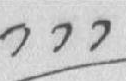༡༡༡
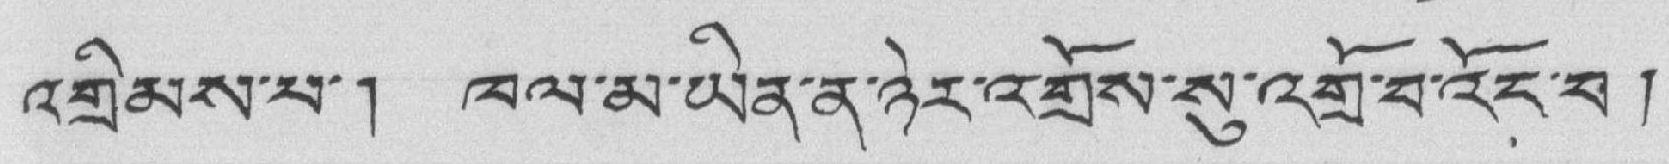འགྲིམས་པ་། ཁལ་མ་ཡིན་ན་ཉེར་འགྲོས་སུ་འགྲོ་བ་འོར་བ །
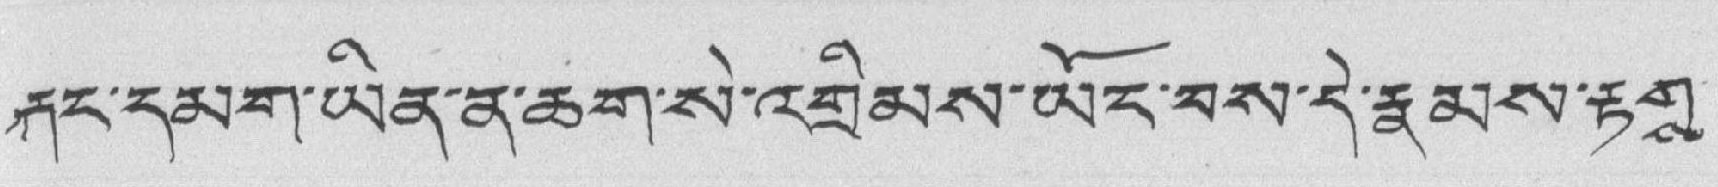རྐང་དམག་ཡིན་ན་ཆག་སེ་འགྲིམས་ཡོང་བས་དེ་རྣམས་རྟགས་
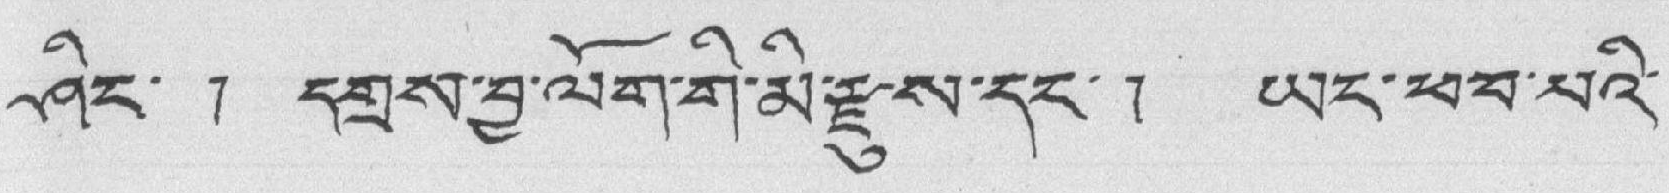ཤིང་ ། དགྲས་བྱ་ལོག་གི་མི་རྫུས་དང་། ཡང་ཕབ་པའི་
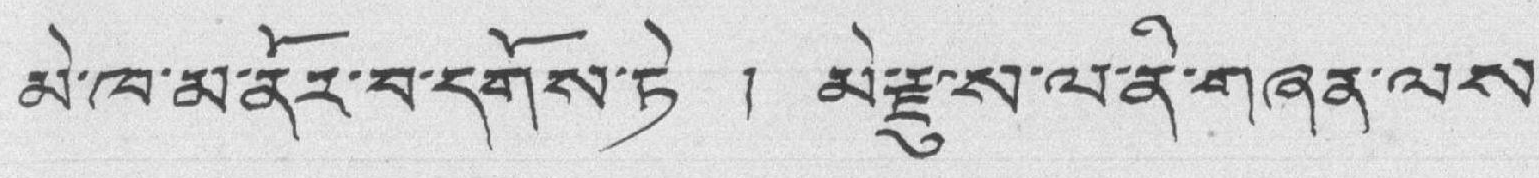མེ་ཁ་མནོར་བ་དགོས་ཏེ ། མེ་རྫུས་ལ་ནི་གཞན་ལས་
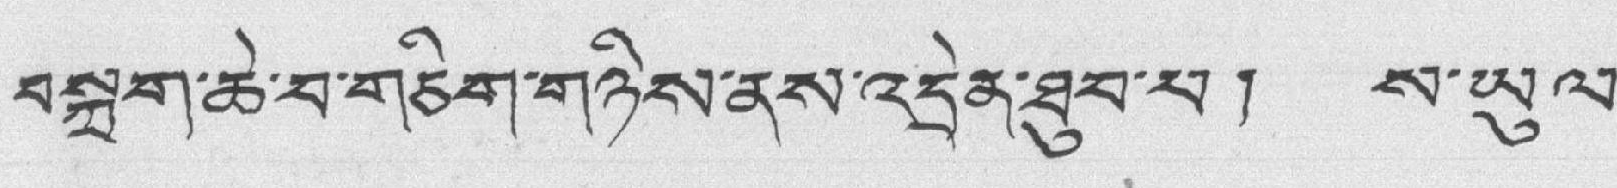བསྐྲག་ཆེ་བ་གཅིག་གཉིས་ནས་འདྲེན་ཐུབ་པ། ས་ཡུལ་
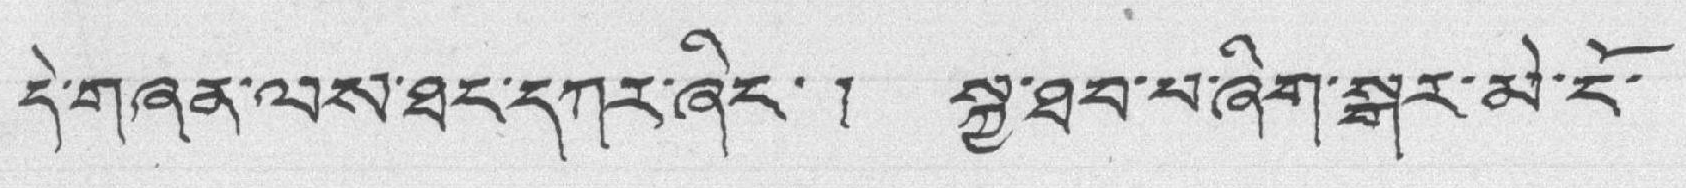དེ་གཞན་ལས་ཐང་དཀར་ཞིང་། སྐྱ་ཐབ་པ་ཞིག་སྒར་མེ་ངོ་
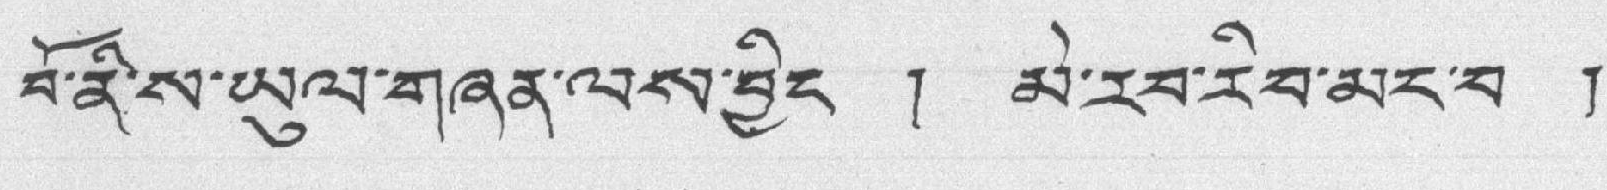བོ་ནི་ས་ཡུལ་གཞན་ལས་བྱིད ། མེ་རབ་རིབ་མང་བ །
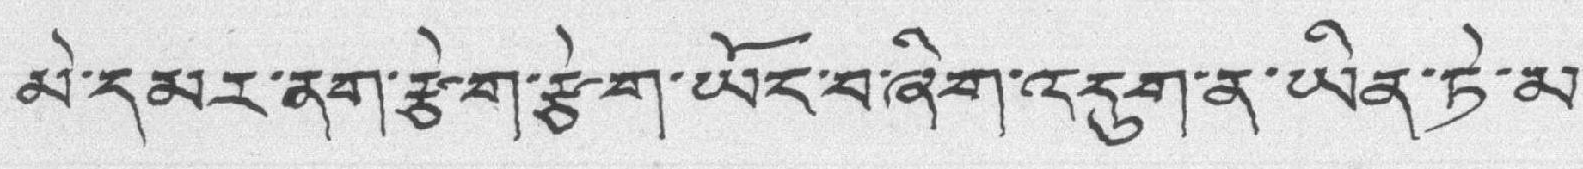མི་དམར་ནག་རྩེག་རྩེག་ཡོང་བ་ཞིག་འདུག་ན་ཡིན་ཏེ་མ་
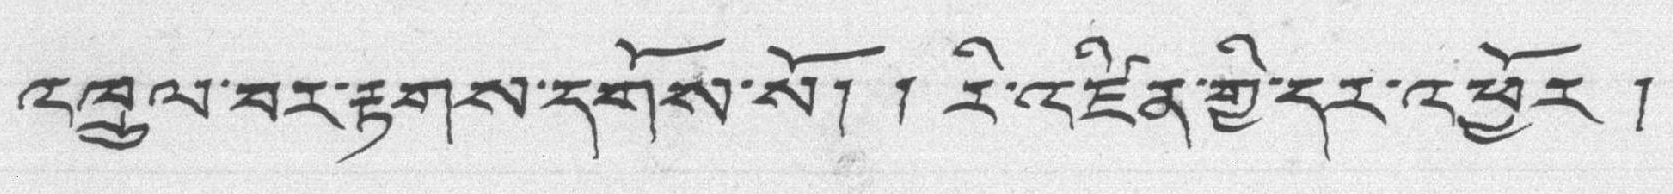འཁྲུལ་བར་རྟགས་དགོས་སོ། ། རི་འཛིན་གྱི་དར་འཕྱོར །
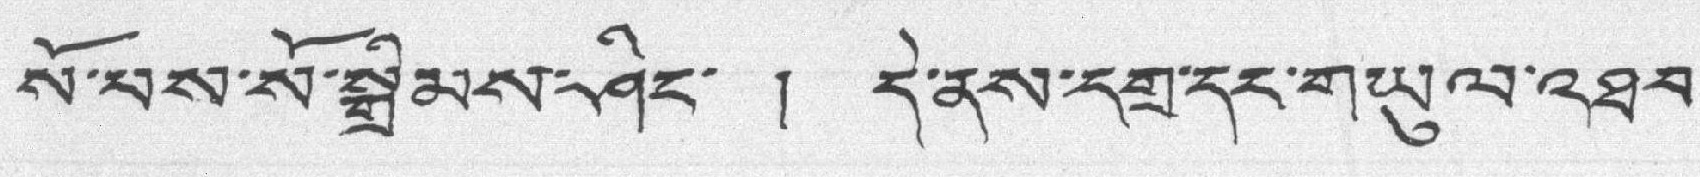སོ་མས་སོ་སྒྲིམས་ཤིང་ ། དེ་ནས་དགྲ་དང་གཡུལ་འཐབ་
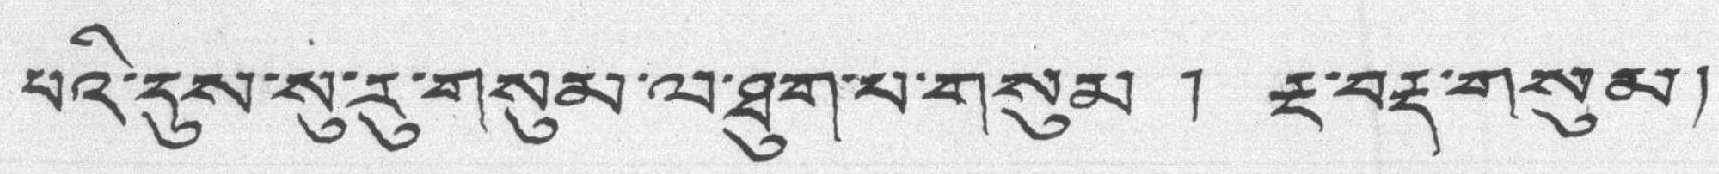པའི་དུས་སུ་རུ་གསུམ་ལ་ཐུག་པ་གསུམ ། རྔ་བརྡ་གསུམ།
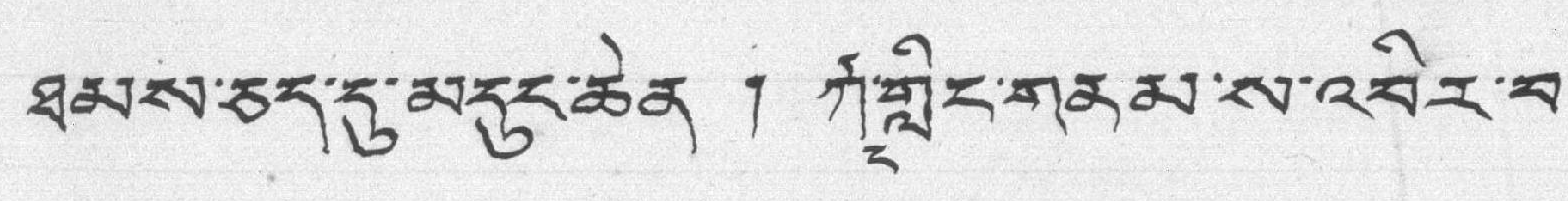ཐམས་ཅད་དུ་མདུད་ཆེན ། རྐང་གླིང་གནམ་ས་འབིར་བ་
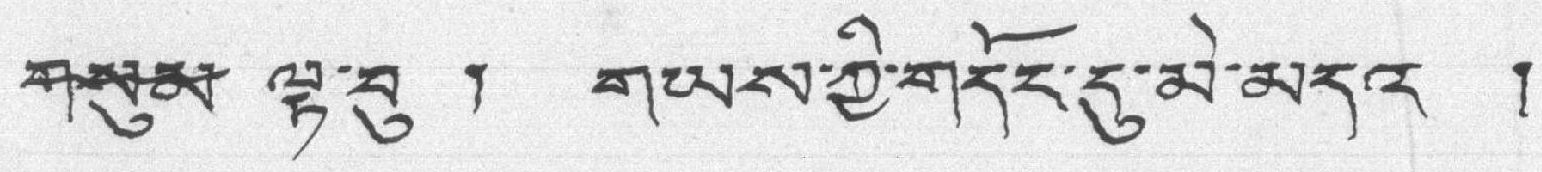གསུམ་ ལྟ་བུ ། གཡས་ཀྱི་གདོང་དུ་མེ་མདའ །
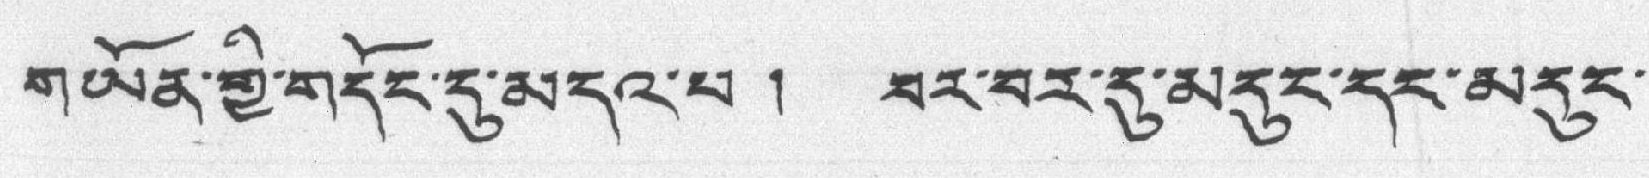གཡོན་གྱི་གདོང་དུ་མདའ་པ ། བར་བར་དུ་མདུང་དང་མདུང་
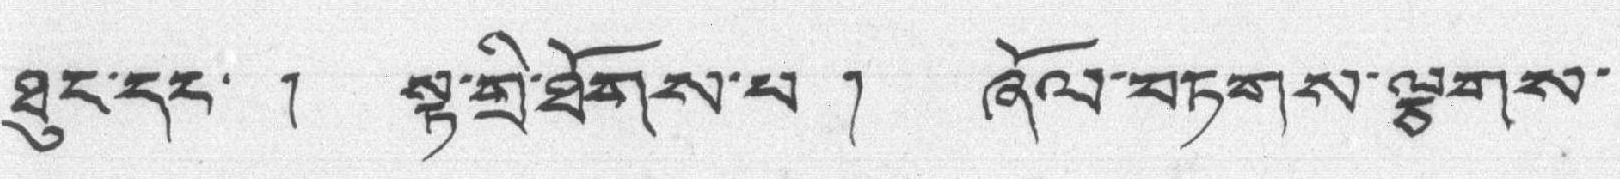ཐུང་དང་ ། སྟ་གྲི་ཐོགས་པ ། ཞོལ་བཏགས་ལྕགས་
